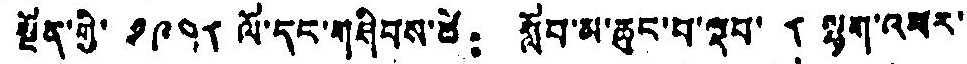སྔོན་གྱི་ ༡༩༤༨ ལོ་དང་གཤིབས་ཚེ： སློབ་མ་ཆུང་བ་ལྡབ་ ༨ ལྷག་འཕར་
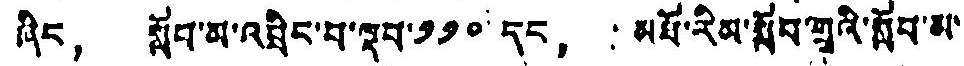ཞིང， སློབ་མ་འབྲིང་བ་ལྡབ་༡༡༠ དང， མཐོ་རིམ་སློབ་གྲྭའི་སློབ་མ་
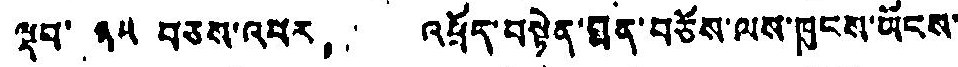ལྡབ་ ༣༥ བཅས་འབར， འཕྲོད་བསྟེན་ཐྨན་བཅོས་ལས་ཁུངས་ཡོངས་
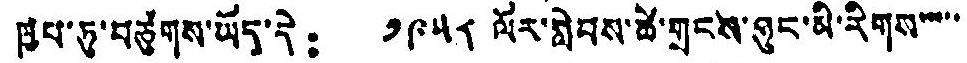ཁྱབ་ཏུ་བཙུགས་ཡོད་དེ： ༡༩༥༨ ལོར་སླེབས་ཚེ་གྲངས་ཉུང་མི་རིགས་་་་་
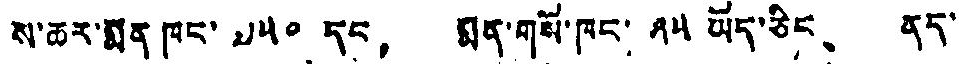ས་ཆར་སྨན ཁང་ ༧༥༠ དང， སྨན་གསོ་ཁང་ ༢༥ ཡོད་ཅིང、 ནད་
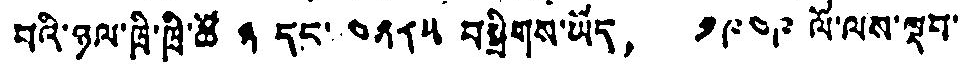བའི་ཉལ་ཁྲི་ཁྲི་ཚོ ༣ དང་ ༤༢༨༥ བསྒྲིགས་ཡོད， ༡༩༤༩ ལོ་ལས་སྡབ་
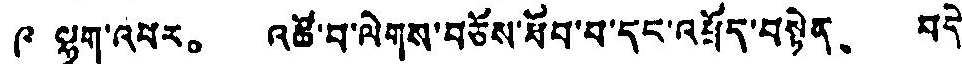༩ ལྷག་འབར。 འཚོ་བ་ལེགས་བཅོས་ཐོབ་པ་དང་འཕྲོད་བསྟེན、 བདེ་
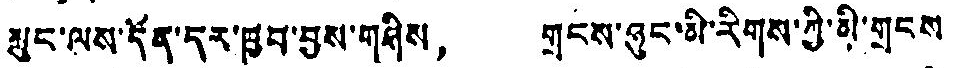མུང་ལས་དོན་དར་ཁྱབ་བྱས་གཤིས， གྲངས་ཉུང་མི་རིགས་ཀྱི་མི་གྲངས་
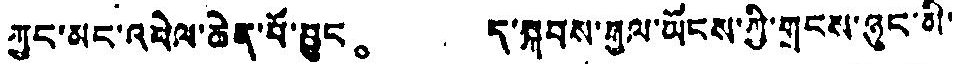ཀྱང་མང་འཕེལ་ཆེན་པོ་བྱུང。 ད་སྐབས་རྒྱལ་ཡོངས་ཀྱི་གྲངས་ཉུང་མི་
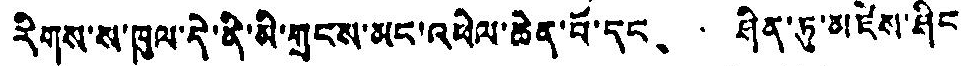རིགས་ས་ཁུལ་དེ་ནི་མི་གྲངས་མང་འཕེལ་ཆེན་པོ་དང、 ཤིན་ཏུ་མཛེས་ཤིང་
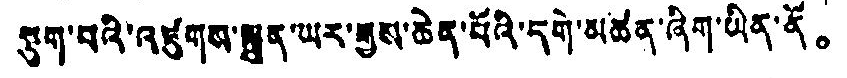སྡུག་པའི་འཛུགས་མྐྲུན་ཡར་རྒྱས་ཆེན་པོའི་དགེ་མཚན་ཞིག་ཡིན་ནོ。
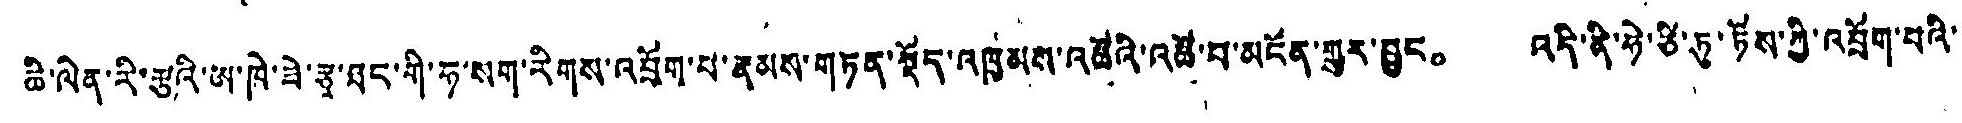ཆི་ལེན་རི་རྩའི་ཨ་ཁེ་ཟེ་རྩྭ་ཐང་གི་ཧ་སག་རིགས་འབྲོག་པ་རྣམས་གཏན་སྡོད་འཁྱམས་འཚོའི་འཚོ་བ་མངོན་གྱུར་བྱུང。 འདི་ནི་ཧེ་ཙི་ཏུ་ཏོས་ཀྱི་འབྲོག་པའི་
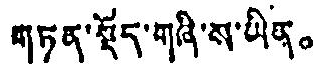གཏན་སྡོད་གཞི་ས་ཡིན。
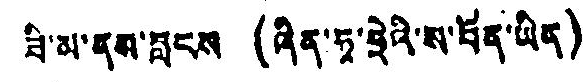ཟི་མ་ནས་བླངས (ཞིན་ཧྭ་ཧྲེའི་ས་བོན་ཡིན)
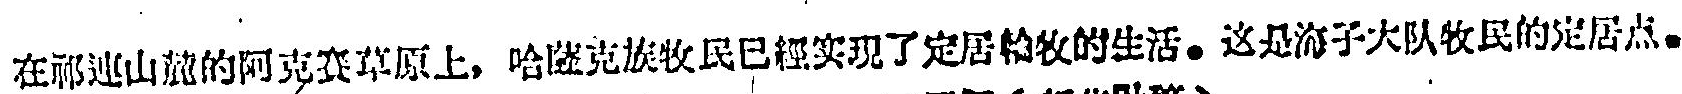在祁連山麓的阿克賽草原上，哈薩克族牧民已經实現了定居輪牧的生活。这是海子大队牧民的定居点。
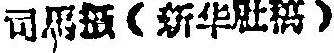司馬摄（新华社稿）
